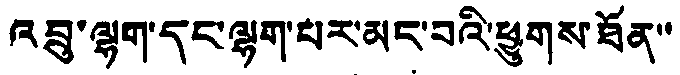འབྲུ་ལྷག་དང་ལྷག་པར་མང་བའི་ཕྱུགས་ཐོན་་
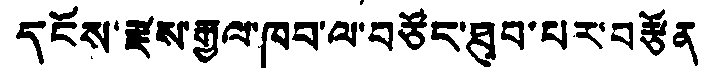དངོས་རྫས་རྒྱལ་ཁབ་ལ་བཅོད་ཐུབ་པར་བརྩོན
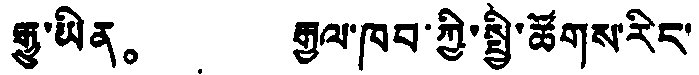རྒྱུ་ཡིན。 རྒྱལ་ཁབ་ཀྱི་སྤྱི་ཚོགས་རིང་
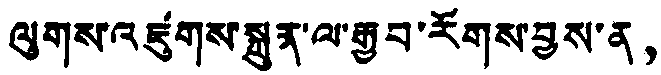ལུགས་འཛུགས་སྐྲུན་ལ་རྒྱབ་རོགས་བྱས་ན，
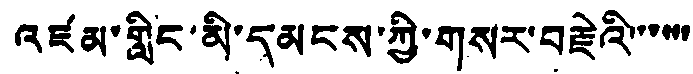འཛམ་གླིང་མི་དམངས་ཀྱི་གསར་བརྗེའི་་་་་་
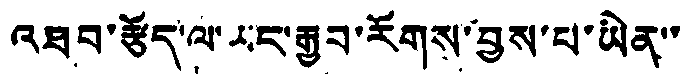འཐབ་རྩོད་ལ་ཡང་རྒྱབ་རོགས་བྱས་པ་ཡིན་་
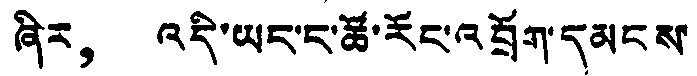ཞིར， འདི་ཡང་ང་ཚོ་རོང་འབྲོག་དམངས་
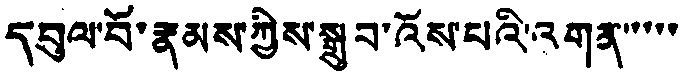དབུལ་བོ་རྣམས་ཀྱིས་སྒྲུབ་འོས་པའི་འགན་་་་་
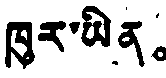ཁུར་ཡིན。
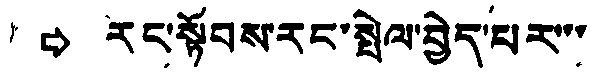⇨ རང་སྟོབས་རང་སྤེལ་བྱེད་པར་་་
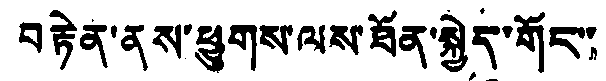བརྟེན་ནས་ཕྱུགས་ལས་ཐོན་སྐྱེད་གོང་་
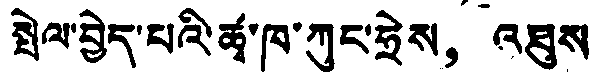སྤེལ་བྱེད་པའི་ཚྭ་ཁ་ཀུང་ཧྲེས， འཐུས་
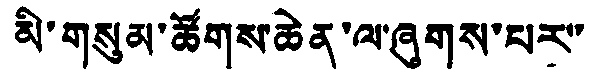མི་གསུམ་ཚོགས་ཆེན་ལ་ཞུགས་པར་་
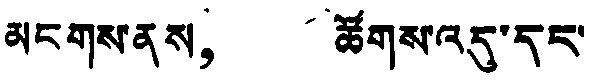མངགས་ནས， ཚོགས་འདུ་དང་
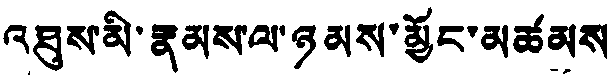འཐུས་མི་རྣམས་ལ་ཉམས་མྱོང་མཚམས
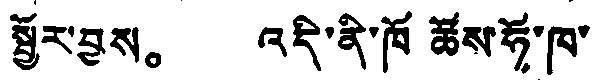སྦྱོར་བྱས。 འདི་ནི་ཁོ ཚོས་ཧོ་ཁ་
